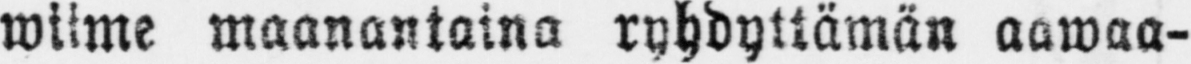wiime maanantaina ryhdyttämän aawaa-
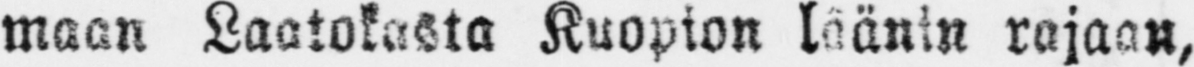maan Laatokasta Kuopion läänin rajaan,
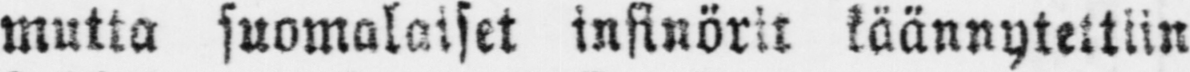mutta suomalaiset insinörit käännytettiin
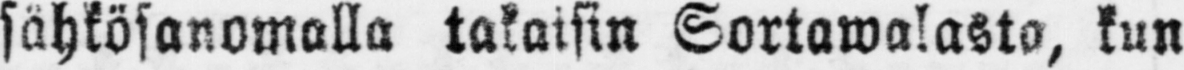sähkösanomalla takaisin Sortawalasta, kun
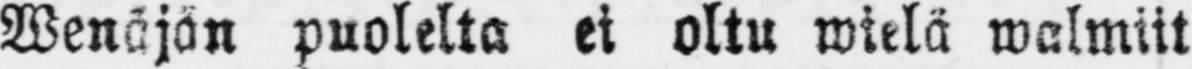Wenäjän puolelta ei oltu wielä walmiit
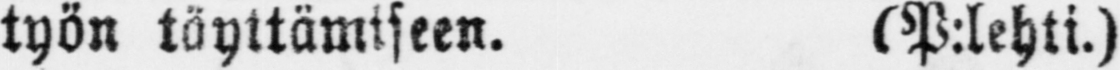työn täyttämiseen. (P:lehti.)
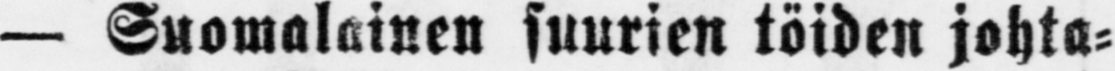— Suomalainen suurien töiden johta-
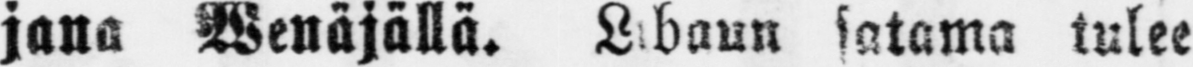jalla Wenäjällä. Libaun satama tulee
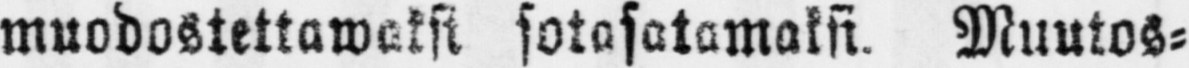muodostettaweksi sotasatamaksi. Muutos-
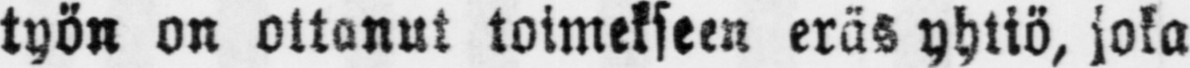työn on ottanut toimekseen eräs yhtiö, joka
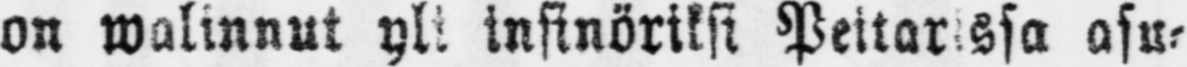on walinnut yli insinöriksi Peitarissa asu-
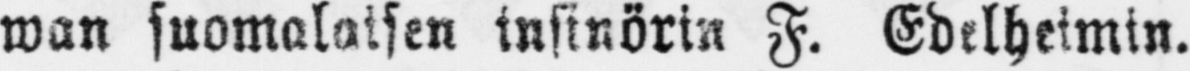wan suomalaisen insinörin F. Edelheimin.
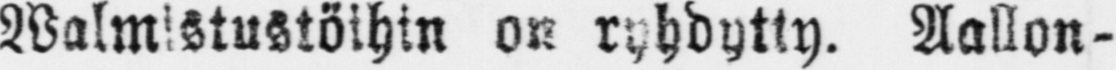Walmistustöihin on ryhdytty. Aallon-
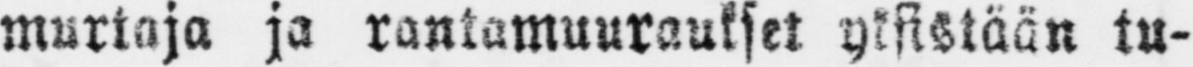murtaja ja rantamuuraukset yksistään tu-
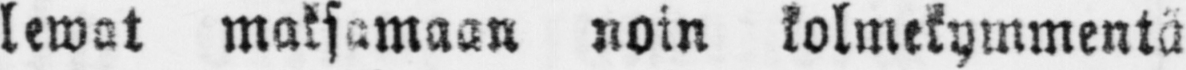lewat maksamaan noin kolmekymmentä
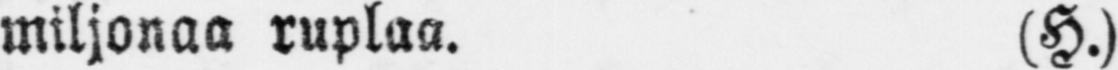miljonaa ruplaa. (H.)
